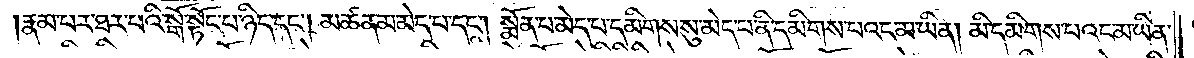རྣམ་པར་ཐར་པའི་སྒོ་སྟོང་པ་ཉིད་དང༌། མཚན་མ་མེད་པ་དང༌། སྨོན་པ་མེད་པ་དམིགས་སུ་མེད་པ་ནི་དམིགས་པའང་མ་ཡིན། མི་དམིགས་པའང་མ་ཡིན་
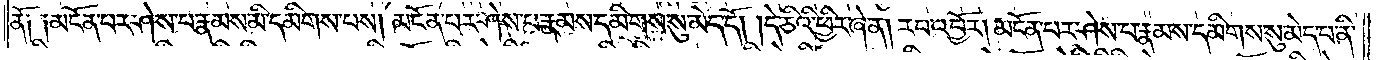ནོ། །མངོན་པར་ཤེས་པ་རྣམས་མི་དམིགས་པས། མངོན་པར་ཤེས་པ་རྣམས་དམིགས་སུ་མེད་དོ། །དེ་ཅིའི་ཕྱིར་ཞེ་ན། རབ་འབྱོར། མངོན་པར་ཤེས་པ་རྣམས་དམིགས་སུ་མེད་པ་ནི་
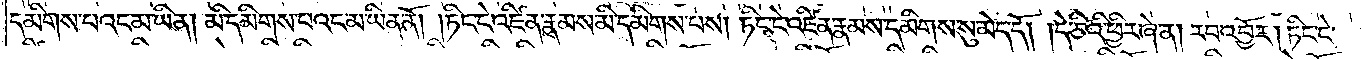དམིགས་པའང་མ་ཡིན། མི་དམིགས་པའང་མ་ཡིན་ནོ། །ཏིང་ངེ་འཛིན་རྣམས་མི་དམིགས་པས། ཏིང་ངེ་འཛིན་རྣམས་དམིགས་སུ་མེད་དོ། །དེ་ཅིའི་ཕྱིར་ཞེ་ན། རབ་འབྱོར། ཏིང་ངེ་
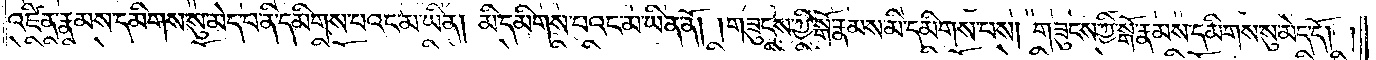འཛིན་རྣམས་དམིགས་སུ་མེད་པ་ནི་དམིགས་པའང་མ་ཡིན། མི་དམིགས་པའང་མ་ཡིན་ནོ། །གཟུངས་ཀྱི་སྒོ་རྣམས་མི་དམིགས་པས། གཟུངས་ཀྱི་སྒོ་རྣམས་དམིགས་སུ་མེད་དོ། །
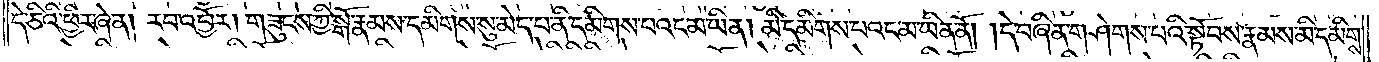དེ་ཅིའི་ཕྱིར་ཞེ་ན། རབ་འབྱོར། གཟུངས་ཀྱི་སྒོ་རྣམས་དམིགས་སུ་མེད་པ་ནི་དམིགས་པའང་མ་ཡིན། མི་དམིགས་པའང་མ་ཡིན་ནོ། །དེ་བཞིན་གཤེགས་པའི་སྟོབས་རྣམས་མི་དམིགས་
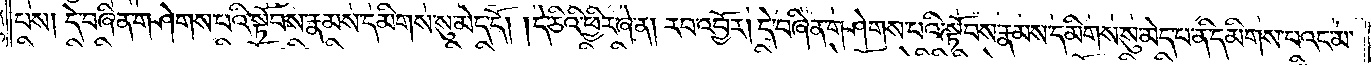པས། དེ་བཞིན་གཤེགས་པའི་སྟོབས་རྣམས་དམིགས་སུ་མེད་དོ། །དེ་ཅིའི་ཕྱིར་ཞེ་ན། རབ་འབྱོར། དེ་བཞིན་གཤེགས་པའི་སྟོབས་རྣམས་དམིགས་སུ་མེད་པ་ནི་དམིགས་པའང་མ་
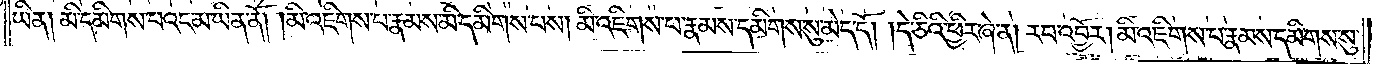ཡིན། མི་དམིགས་པའང་མ་ཡིན་ནོ། །མི་འཇིགས་པ་རྣམས་མི་དམིགས་པས། མི་འཇིགས་པ་རྣམས་དམིགས་སུ་མེད་དོ། །དེ་ཅིའི་ཕྱིར་ཞེ་ན། རབ་འབྱོར། མི་འཇིགས་པ་རྣམས་དམིགས་སུ་
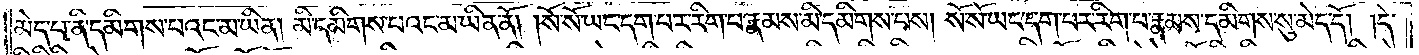མེད་པ་ནི་དམིགས་པའང་མ་ཡིན། མི་དམིགས་པའང་མ་ཡིན་ནོ། །སོ་སོ་ཡང་དག་པར་རིག་པ་རྣམས་མི་དམིགས་པས། སོ་སོ་ཡང་དག་པར་རིག་པ་རྣམས་དམིགས་སུ་མེད་དོ། །དེ་
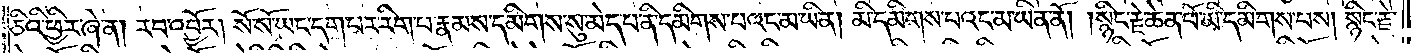ཅིའི་ཕྱིར་ཞེ་ན། རབ་འབྱོར། སོ་སོ་ཡང་དག་པར་རིག་པ་རྣམས་དམིགས་སུ་མེད་པ་ནི་དམིགས་པའང་མ་ཡིན། མི་དམིགས་པའང་མི་ཡིན་ནོ། །སྙིང་རྗེ་ཆེན་པོ་མི་དམིགས་པས། སྙིང་རྗེ་
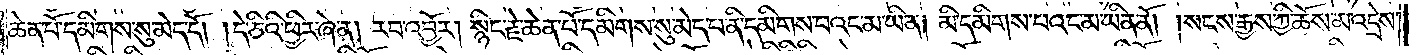ཆེན་པོ་དམིགས་སུ་མེད་དོ། །དེ་ཅིའི་ཕྱིར་ཞེ་ན། རབ་འབྱོར། སྙིང་རྗེ་ཆེན་པོ་དམིགས་སུ་མེད་པ་ནི་དམིགས་པའང་མ་ཡིན། མི་དམིགས་པའང་མ་ཡིན་ནོ། །སངས་རྒྱས་ཀྱི་ཆོས་མ་འདྲེས་
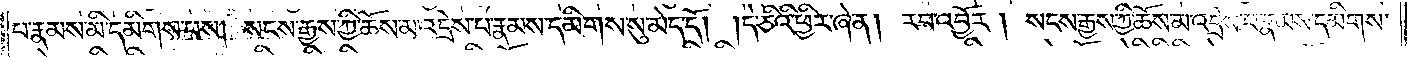པ་རྣམས་མི་དམིགས་པས། སངས་རྒྱས་ཀྱི་ཆོས་མ་འདྲེས་པ་རྣམས་དམིགས་སུ་མེད་དོ། །དེ་ཅིའི་ཕྱིར་ཞེ་ན། རབ་འབྱོར། སངས་རྒྱས་ཀྱི་ཆོས་མ་འདྲེས་པ་རྣམས་དམིགས་
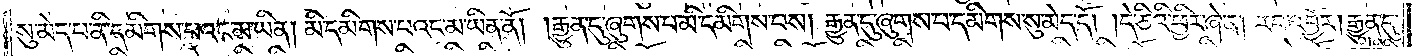སུ་མེད་པ་ནི་དམིགས་པའང་མ་ཡིན། མི་དམིགས་པའང་མ་ཡིན་ནོ། །རྒྱུན་དུ་ཞུགས་པ་མི་དམིགས་པས། རྒྱུན་དུ་ཞུགས་པ་དམིགས་སུ་མེད་དོ། །དེ་ཅིའི་ཕྱིར་ཞེ་ན། རབ་འབྱོར། རྒྱུན་དུ་
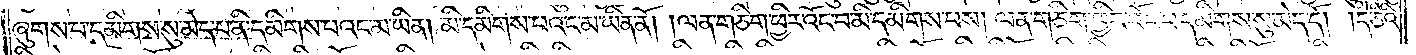ཞུགས་པ་དམིགས་སུ་མེད་པ་ནི་དམིགས་པའང་མ་ཡིན། མི་དམིགས་པའང་མ་ཡིན་ནོ། །ལན་ཅིག་ཕྱིར་འོང་བ་མི་དམིགས་པས། ལན་ཅིག་ཕྱིར་འོང་བ་དམིགས་སུ་མེད་དོ། །དེ་ཅིའི་
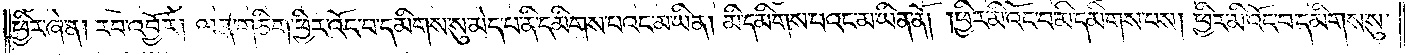ཕྱིར་ཞེ་ན། རབ་འབྱོར། ལན་ཅིག་ཕྱིར་འོང་བ་དམིགས་སུ་མེད་པ་ནི་དམིགས་པའང་མ་ཡིན། མི་དམིགས་པའང་མ་ཡིན་ནོ། །ཕྱིར་མི་འོང་བ་མི་དམིགས་པས། ཕྱིར་མི་འོང་བ་དམིགས་སུ་
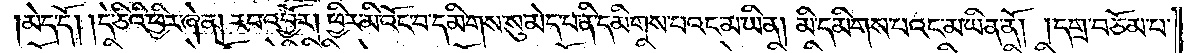མེད་དོ། །དེ་ཅིའི་ཕྱིར་ཞེ་ན། རབ་འབྱོར། ཕྱིར་མི་འོང་བ་དམིགས་སུ་མེད་པ་ནི་དམིགས་པའང་མ་ཡིན། མི་དམིགས་པའང་མ་ཡིན་ནོ། །དགྲ་བཅོམ་པ་
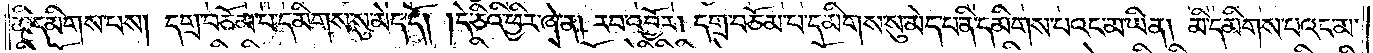མི་དམིགས་པས། དགྲ་བཅོམ་པ་དམིགས་སུ་མེད་དོ། །དེ་ཅིའི་ཕྱིར་ཞེ་ན། རབ་འབྱོར། དགྲ་བཅོམ་པ་དམིགས་སུ་མེད་པ་ནི་དམིགས་པའང་མ་ཡིན། མི་དམིགས་པའང་མ་
